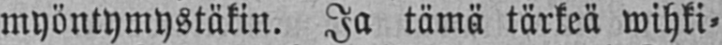myöntymystäkin. Ja tämä tärkeä wihki-
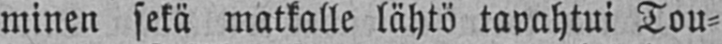minen sekä matkalle lähtö tapahtui Tou-
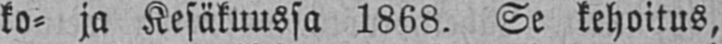ko- ja Kesäkuussa 1868. Se kehoitus,
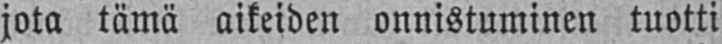jota tämä aikeiden onnistuminen tuotti
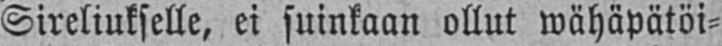Sireliukselle, ei suinkaan ollut wähäpätöi-
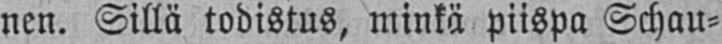nen. Sillä todistus, minkä piispa Schau-
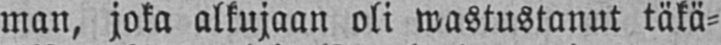man, joka alkujaan oli wastustanut täkä-
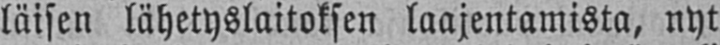läisen lähetyslaitoksen laajentamista, nyt
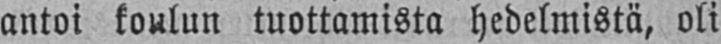antoi koulun tuottamista hedelmistä, oli
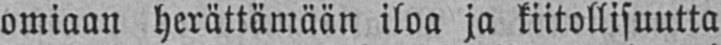omiaan herättämään iloa ja kiitollisuutta
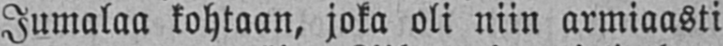Jumalaa kohtaan, joka oli niin armiaasti
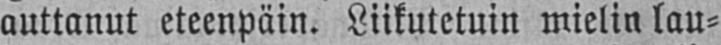auttanut eteenpäin. Liikutetuin mielin lau-
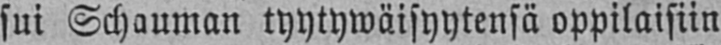sui Schauman tyytywäisyytensä oppilaisiin
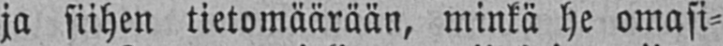ja siihen tietomäärään, minkä he omasi-
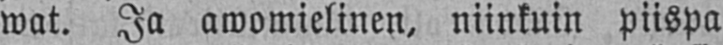wat. Ja awomielinen, niinkuin piispa
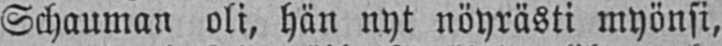Schauman oli, hän nyt nöyrästi myönsi,
